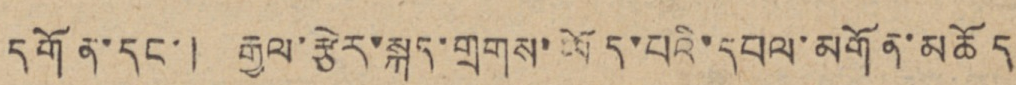དགོན་དང་། རྒྱལ་རྩེར་སྐད་གྲགས་ཡོད་པའི་དཔལ་མགོན་མཆོད
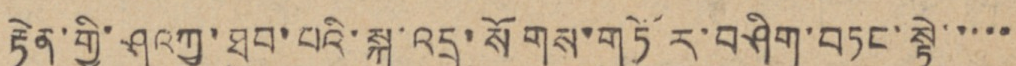རྟེན་གྱི་ཤའཀྱ་ཐུབ་པའི་སྐུ་འདྲ་སོགས་གཏོར་བཤིག་བཏང་སྟེ་་་་་
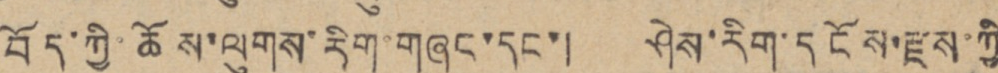བོད་ཀྱི་ཆོས་ལུགས་རིག་གཞུང་དང་། ཤེས་རིག་དངོས་རྫས་ཀྱི
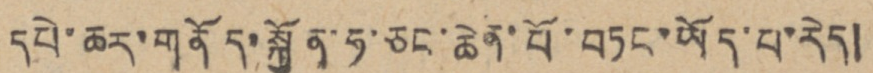དཔེ་ཆར་གནོད་སྐྱོན་ཧ་ཅང་ཆེན་པོ་བཏང་ཡོད་པ་རེད།
